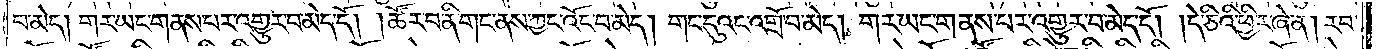བ་མེད། གར་ཡང་གནས་པར་འགྱུར་བ་མེད་དོ། །ཚོར་བ་ནི་གང་ནས་ཀྱང་འོང་བ་མེད། གང་དུའང་འགྲོ་བ་མེད། གར་ཡང་གནས་པར་འགྱུར་བ་མེད་དོ། །དེ་ཅིའི་ཕྱིར་ཞེ་ན། རབ་
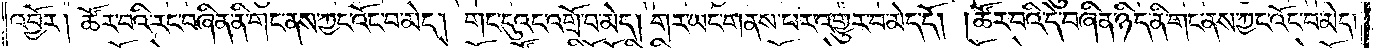འབྱོར། ཚོར་བའི་རང་བཞིན་ནི་གང་ནས་ཀྱང་འོང་བ་མེད། གང་དུའང་འགྲོ་བ་མེད། གར་ཡང་གནས་པར་འགྱུར་བ་མེད་དོ། །ཚོར་བའི་དེ་བཞིན་ཉིད་ནི་གང་ནས་ཀྱང་འོང་བ་མེད།
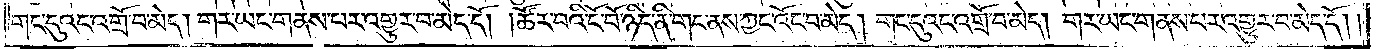གང་དུའང་འགྲོ་བ་མེད། གར་ཡང་གནས་པར་འགྱུར་བ་མེད་དོ། །ཚོར་བའི་ངོ་བོ་ཉིད་ནི་གང་ནས་ཀྱང་འོང་བ་མེད། གང་དུའང་འགྲོ་བ་མེད། གར་ཡང་གནས་པར་འགྱུར་བ་མེད་དོ། །
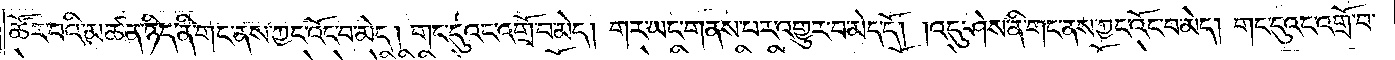ཚོར་བའི་མཚན་ཉིད་ནི་གང་ནས་ཀྱང་འོང་བ་མེད། གང་དུའང་འགྲོ་བ་མེད། གར་ཡང་གནས་པར་འགྱུར་བ་མེད་དོ། །འདུ་ཤེས་ནི་གང་ནས་ཀྱང་འོང་བ་མེད། གང་དུའང་འགྲོ་བ་
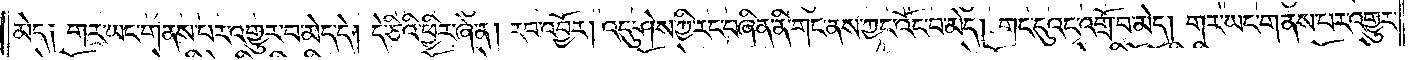མེད། གར་ཡང་གནས་པར་འགྱུར་བ་མེད་དེ། དེ་ཅིའི་ཕྱིར་ཞེ་ན། རབ་འབྱོར། འདུ་ཤེས་ཀྱི་རང་བཞིན་ནི་གང་ནས་ཀྱང་འོང་བ་མེད། གང་དུའང་འགྲོ་བ་མེད། གར་ཡང་གནས་པར་འགྱུར་
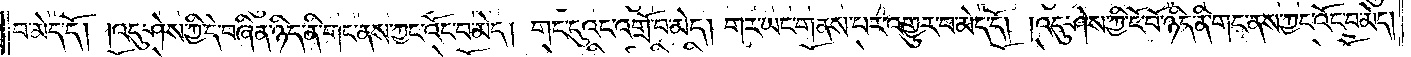བ་མེད་དོ། །འདུ་ཤེས་ཀྱི་དེ་བཞིན་ཉིད་ནི་གང་ནས་ཀྱང་འོང་བ་མེད། གང་དུའང་འགྲོ་བ་མེད། གར་ཡང་གནས་པར་འགྱུར་བ་མེད་དོ། །འདུ་ཤེས་ཀྱི་ངོ་བོ་ཉིད་ནི་གང་ནས་ཀྱང་འོང་བ་མེད།
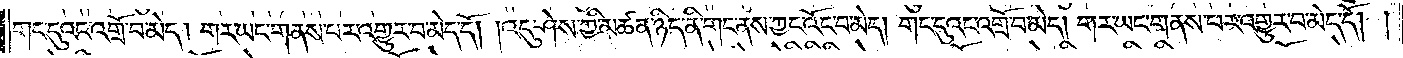གང་དུའང་འགྲོ་བ་མེད། གར་ཡང་གནས་པར་འགྱུར་བ་མེད་དོ། །འདུ་ཤེས་ཀྱི་མཚན་ཉིད་ནི་གང་ནས་ཀྱང་འོང་བ་མེད། གང་དུའང་འགྲོ་བ་མེད། གར་ཡང་གནས་པར་འགྱུར་བ་མེད་དོ། །
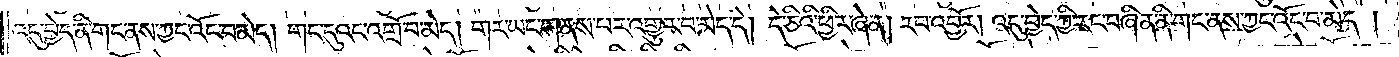འདུ་བྱེད་ནི་གང་ནས་ཀྱང་འོང་བ་མེད། གང་དུའང་འགྲོ་བ་མེད། གར་ཡང་གནས་པར་འགྱུར་བ་མེད་དེ། དེ་ཅིའི་ཕྱིར་ཞེ་ན། རབ་འབྱོར། འདུ་བྱེད་ཀྱི་རང་བཞིན་ནི་གང་ནས་ཀྱང་འོང་བ་མེད། །
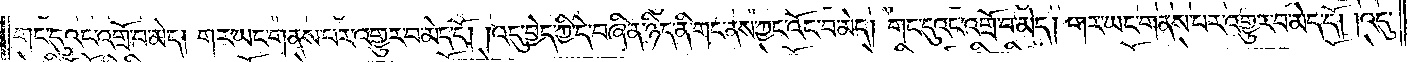གང་དུའང་འགྲོ་བ་མེད། གར་ཡང་གནས་བར་འགྱུར་བ་མེད་དོ། །འདུ་བྱེད་ཀྱི་དེ་བཞིན་ཉིད་ནི་གང་ནས་ཀྱང་འོང་བ་མེད། གང་དུའང་འགྲོ་བ་མེད། གར་ཡང་གནས་བར་འགྱུར་བ་མེད་དོ། །འདུ་
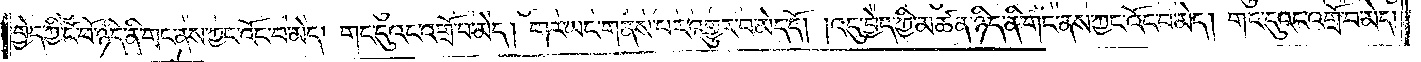བྱེད་ཀྱི་ངོ་བོ་ཉིད་ནི་གང་ནས་ཀྱང་འོང་བ་མེད། གང་དུའང་འགྲོ་བ་མེད། གར་ཡང་གནས་པར་འགྱུར་བ་མེད་དོ། །འདུ་བྱེད་ཀྱི་མཚན་ཉིད་ནི་གང་ནས་ཀྱང་འོང་བ་མེད། གང་དུའང་འགྲོ་བ་མེད།
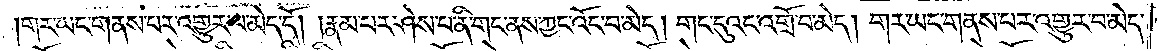གར་ཡང་གནས་པར་འགྱུར་བ་མེད་དོ། །རྣམ་པར་ཤེས་པ་ནི་གང་ནས་ཀྱང་འོང་བ་མེད། གང་དུའང་འགྲོ་བ་མེད། གར་ཡང་གནས་པར་འགྱུར་བ་མེད་
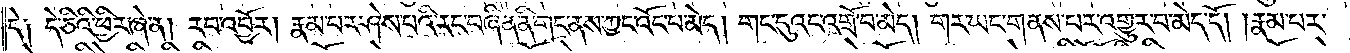དེ། དེ་ཅིའི་ཕྱིར་ཞེ་ན། རབ་འབྱོར། རྣམ་པར་ཤེས་པའི་རང་བཞིན་ནི་གང་ནས་ཀྱང་འོང་བ་མེད། གང་དུའང་འགྲོ་བ་མེད། གར་ཡང་གནས་པར་འགྱུར་བ་མེད་དོ། །རྣམ་པར་
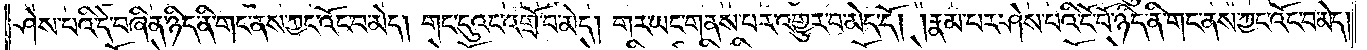ཤེས་པའི་དེ་བཞིན་ཉིད་ནི་གང་ནས་ཀྱང་འོང་བ་མེད། གང་དུའང་འགྲོ་བ་མེད། གར་ཡང་གནས་པར་འགྱུར་བ་མེད་དོ། །རྣམ་པར་ཤེས་པའི་ངོ་བོ་ཉིད་ནི་གང་ནས་ཀྱང་འོང་བ་མེད།
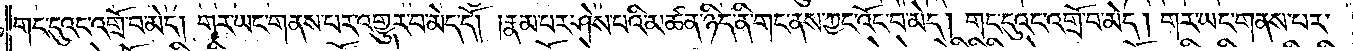གང་དུའང་འགྲོ་བ་མེད། གར་ཡང་གནས་པར་འགྱུར་བ་མེད་དོ། །རྣམ་པར་ཤེས་པའི་མཚན་ཉིད་ནི་གང་ནས་ཀྱང་འོང་བ་མེད། གང་དུའང་འགྲོ་བ་མེད། གར་ཡང་གནས་པར་
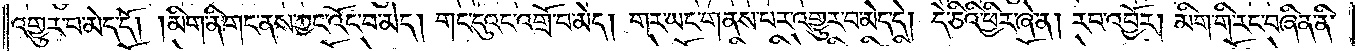འགྱུར་བ་མེད་དོ། །མིག་ནི་གང་ནས་ཀྱང་འོང་བ་མེད། གང་དུའང་འགྲོ་བ་མེད། གར་ཡང་གནས་པར་འགྱུར་བ་མེད་དེ། དེ་ཅིའི་ཕྱིར་ཞེ་ན། རབ་འབྱོར། མིག་གི་རང་བཞིན་ནི་
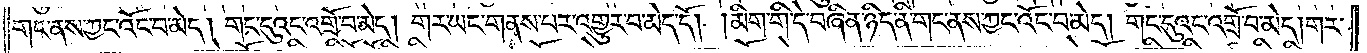གང་ནས་ཀྱང་འོང་བ་མེད། གང་དུའང་འགྲོ་བ་མེད། གར་ཡང་གནས་པར་འགྱུར་བ་མེད་དོ། །མིག་གི་དེ་བཞིན་ཉིད་ནི་གང་ནས་ཀྱང་འོང་བ་མེད། གང་དུའང་འགྲོ་བ་མེད། གར་
